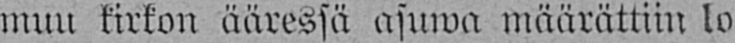muu kirkon ääressä asuwa määrättiin lo-
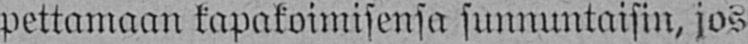pettamaan kapakoimisensa sunnuntaisin, jos
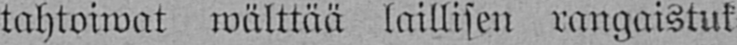tahtoiwat wälttää laillisen rangaistuk-
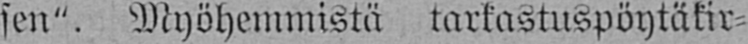sen". Myöhemmistä tarkastuspöytäkir-
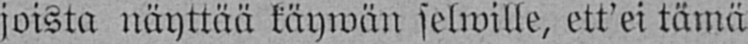joista näyttää käywän selwille, ett'ei tämä.
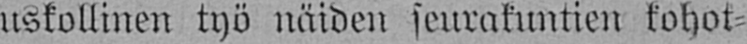uskollinen työ näiden seurakuntien kohot-
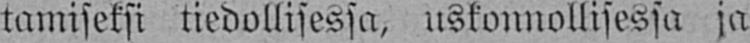tamiseksi tiedollisessa, uskonnollisessa ja
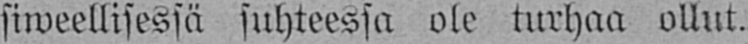siweellisessä suhteessa ole turhaa ollut.
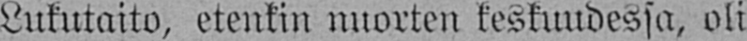Lukutaito, etenkin nuorten keskuudessa, oli
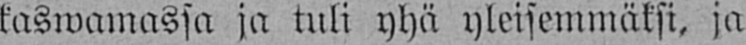kaswamassa ja tuli yhä yleisemmäksi, ja
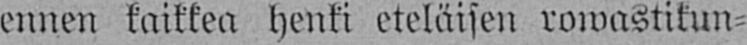ennen kaikkea henki eteläisen rowastikun-
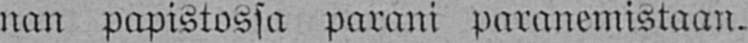nan papistossa parani paranemistaan.
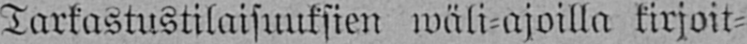Tarkastustilaisuuksien wäli-ajoilla kirjoit-
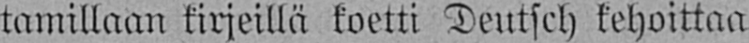tamillaan kirjeillä koetti Deutsch kehoittaa
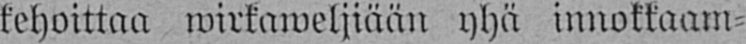kehoittaa wirkaweljiään yhä innokkaam-
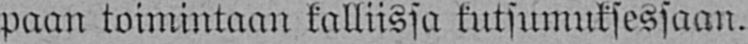paan toimintaan kalliissa kutsumuksessaan.
